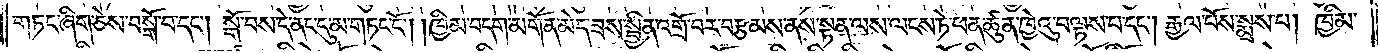གཏང་ཞིག་ཅེས་བསྒོ་བ་དང༌། སྒོ་བས་དེ་ནང་དུ་མ་གཏང་ངོ༌། །ཁྱིམ་བདག་མགོན་མེད་ཟས་སྦྱིན་འགྲོ་བར་བརྩམས་ནས་སྟན་ལས་ལངས་ཏེ་ཕན་ཚུན་ཁྱེའུ་བལྟས་པ་དང༌། རྒྱལ་པོས་སྨྲས་པ། ཁྱིམ་
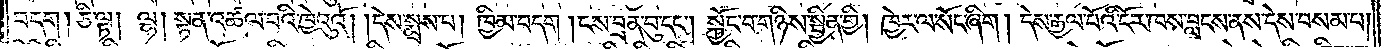བདག །ཅི་ལྟ། ལྷ། སྟན་འཚལ་བའི་ཁྱེའུའོ། །དེས་སྨྲས་པ། ཁྱིམ་བདག། ངས་བྲན་བུ་དང༌། སྐྱོང་བ་གཉིས་སྦྱིན་གྱི། ཁྱེར་ལ་སོང་ཞིག། དེས་རྒྱལ་པོའི་ངོར་ཁས་བླངས་ནས་དེས་བསམ་པ།
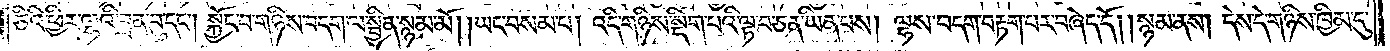ཅིའི་ཕྱིར་ལྷའི་བྲན་བུ་དང༌། སྐྱོང་བ་གཉིས་བདག་ལ་སྦྱིན་སྙམ་མོ། །ཡང་བསམ་པ། འདི་གཉིས་སྡིག་པའི་ལྟ་བ་ཅན་ཡིན་པས། ལྷས་བདག་བརྟག་པར་བཞེད་དོ། །སྙམ་ནས། དེས་དེ་གཉིས་ཁྱིམ་དུ་
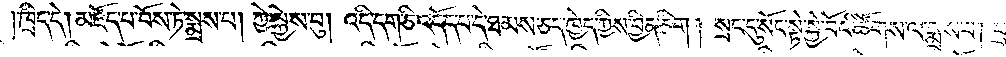ཁྲིད་དེ། མཛོད་པ་བོས་ཏེ་སྨྲས་པ། ཀྱེ་སྐྱེས་བུ། འདི་དག་ཅི་འདོད་པ་དེ་ཐམས་ཅད་ཁྱེད་ཀྱིས་བྱིན་ཅིག །སྲང་དུ་སོང་སྟེ་སྐྱེ་བོའི་ཚོགས་ལ་སྨྲས་པ། བྲན་བུ་དང༌། སྐྱོང་བ་ཅི་ལེན་
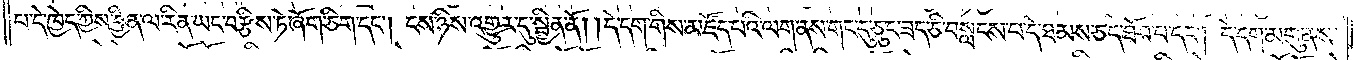པ་དེ་ཁྱེད་ཀྱིས་བྱིན་ལ་རིན་ཡང་བརྩིས་ཏེ་ཞོག་ཅིག་དང༌། ངས་ཉིས་འགྱུར་དུ་སྦྱིན་ནོ། །དེ་དག་གིས་མཛོད་པའི་ལག་ནས་གང་དུ་ཅུང་ཟད་ཅི་བསླངས་པ་དེ་ཐམས་ཅད་ཐོབ་པ་དང༌། དེ་དག་མགུ་ནས་
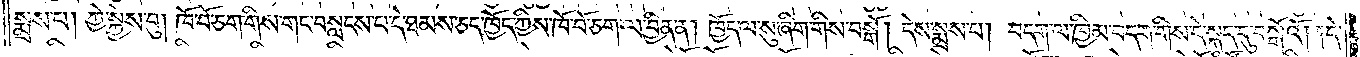སྨྲས་པ། ཀྱེ་སྐྱེས་བུ། ཁོ་བོ་ཅག་གིས་གང་བསླངས་པ་དེ་ཐམས་ཅད་ཁྱོད་ཀྱིས་ཁོ་བོ་ཅག་ལ་བྱིན་ན། ཁྱོད་ལ་སུ་ཞིག་གིས་བསྒོ། དེས་སྨྲས་པ། བདག་ལ་ཁྱིམ་བདག་གིས་དེ་སྐད་དུ་བསྒོའོ། །དེ་
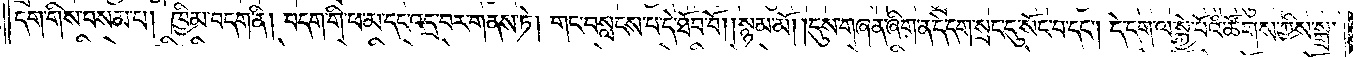དག་གིས་བསམ་པ། ཁྱིམ་བདག་ནི། བདག་གི་ཕ་མ་དང་འདྲ་བར་གནས་ཏེ། གང་བསླངས་པ་དེ་ཐོབ་བོ། །སྙམ་མོ། །དུས་གཞན་ཞིག་ན་དེ་དག་སྲང་དུ་སོང་བ་དང༌། དེ་དག་ལ་སྐྱེ་བོའི་ཚོགས་ཀྱིས་སྒྲ་
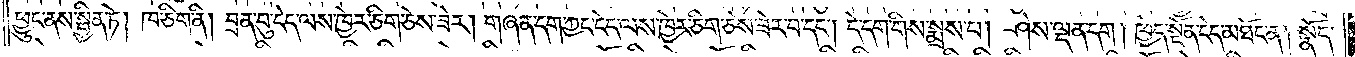ཕྱུང་ནས་སྦྱིན་ཏེ། ཁ་ཅིག་ནི། བྲན་བུ་ངེད་ལས་ཁྱེར་ཅིག་ཅེས་ཟེར། གཞན་དག་ཀྱང་ངེད་ལས་ཁྱེར་ཅིག་ཅེས་ཟེར་བ་དང༌། དེ་དག་གིས་སྨྲས་པ། ཤེས་ལྡན་དག །ཁྱེད་སྔོན་ངེད་མཐོང་ན། སྣོད་
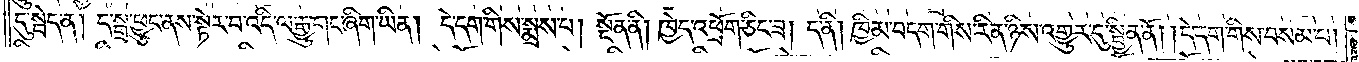དུ་སྦེད་ན། ད་སྒྲ་ཕྱུང་ནས་སྟེར་བ་འདི་ལ་རྒྱུ་གང་ཞིག་ཡིན། དེ་དག་གིས་སྨྲས་པ། སྔོན་ནི། ཁྱེད་འཕྲོག་ཅིང་ཟ། ད་ནི། ཁྱིམ་བདག་གིས་རིན་ཉིས་འགྱུར་དུ་སྦྱིན་ནོ། །དེ་དག་གིས་བསམ་པ།
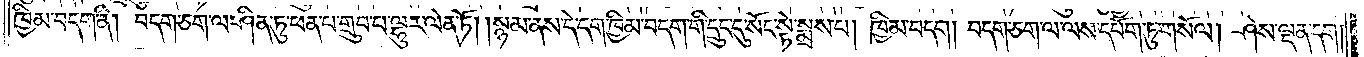ཁྱིམ་བདག་ནི། བདག་ཅག་ལ་ཤིན་ཏུ་ཕན་པ་གྲུབ་པ་ལྷུར་ལེན་ཏོ། །སྙམ་ནས་དེ་དག་ཁྱིམ་བདག་གི་དྲུང་དུ་སོང་སྟེ་སྨྲས་པ། ཁྱིམ་བདག། བདག་ཅག་ལ་ལས་དཔོག་ཏུ་གསོལ། ཤེས་ལྡན་དག།
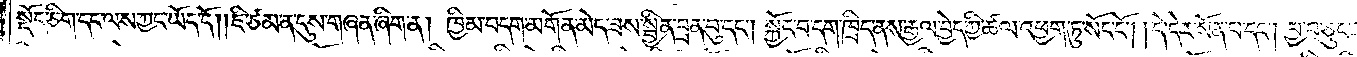སྡོད་ཅིག་དང་ལས་ཀྱང་ཡོད་དོ། །ཇི་ཙམ་ན་དུས་གཞན་ཞིག་ན། ཁྱིམ་བདག་མགོན་མེད་ཟས་སྦྱིན་བྲན་བུ་དང༌། སྐྱོང་བ་དག་ཁྲིད་ནས་རྒྱལ་བྱེད་ཀྱི་ཚལ་འཕྱག་ཏུ་སོང་ངོ༌། །དེ་དེར་སོན་པ་དང༌། བྱ་བ་ཅུང་ཟད་
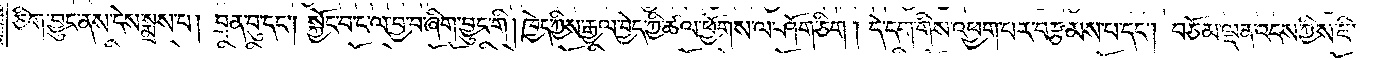ཅིག་བྱུང་ནས་དེས་སྨྲས་པ། བྲན་བུ་དང༌། སྐྱོང་བ་ང་ལ་བྱ་བ་ཞིག་བྱུང་གི། ཁྱེད་ཀྱིས་རྒྱལ་བྱེད་ཀྱི་ཚལ་ཕྱོགས་ལ་ཤོག་ཅིག །དེ་དག་གིས་འཕྱག་པར་བརྩམས་པ་དང༌། བཅོམ་ལྡན་འདས་ཀྱིས་ཇི་
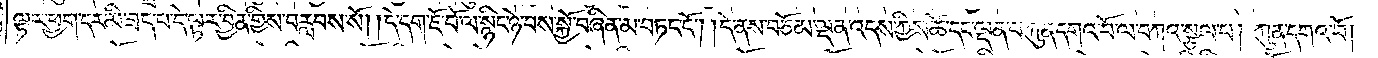ལྟར་ཕྱག་དར་མི་ཟད་པ་དེ་ལྟར་བྱིན་གྱིས་བརླབས་སོ། །དེ་དག་ཇོ་བོ་ལ་སྙིང་ཉེ་བས་སྐྱོ་བཞིན་མ་བཏང་ངོ༌། །དེ་ནས་བཅོམ་ལྡན་འདས་ཀྱིས་ཚེ་དང་ལྡན་པ་ཀུན་དགའ་བོ་ལ་བཀའ་སྩལ་པ། ཀུན་དགའ་བོ།
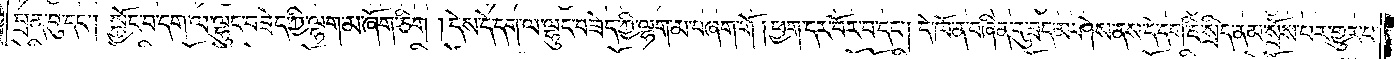བྲན་བུ་དང༌། སྐྱོང་བ་དག་ལ་ལྷུང་བཟེད་ཀྱི་ལྷག་མ་ཞོག་ཅིག །དེས་དེ་དག་ལ་ལྷུང་བཟེད་ཀྱི་ལྷག་མ་བཞག་གོ །ཕྱག་དར་བོར་བ་དང༌། དེ་ཁོ་ན་བཞིན་དུ་ཟད་མ་ཤེས་ནས་དེ་དག་ཇི་སྲིད་ནམ་སྲོས་པར་གྱུར་པ་
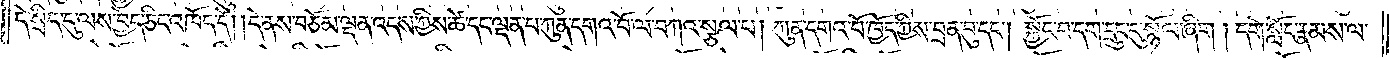དེ་སྲིད་དུ་ལས་བྱེད་ཅིང་འཁོད་དོ། །དེ་ནས་བཅོམ་ལྡན་འདས་ཀྱིས་ཚེ་དང་ལྡན་པ་ཀུན་དགའ་བོ་ལ་བཀའ་སྩལ་པ། ཀུན་དགའ་བོ་ཁྱོད་ཀྱིས་བྲན་བུ་དང༌། སྐྱོང་བ་དག་དྲུང་དུ་སྙོལ་ཞིག །དགེ་སློང་རྣམས་ལ་
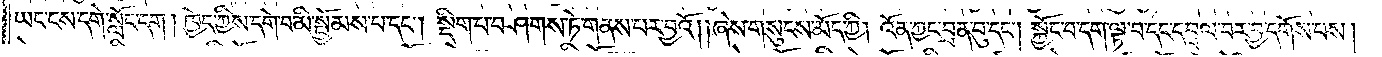ཡང་ངས་དགེ་སློང་དག། ཁྱེད་ཀྱིས་དགེ་བ་མི་སྤྱོམས་པ་དང༌། སྡིག་པ་བཤགས་ཏེ་གནས་པར་བྱའོ། །ཞེས་གསུངས་མོད་ཀྱི། འོན་ཀྱང་བྲན་བུ་དང༌། སྐྱོང་བ་དག་ལྟ་བ་དང་དབྲལ་བར་བྱ་དགོས་པས།
